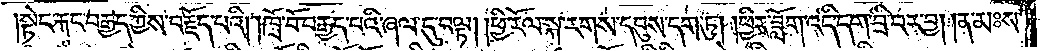སྟེང་རྐང་བརྒྱད་ཀྱིས་བརྗོད་པའི། །ཁྲོ་བོ་བརྒྱད་པའི་ཞལ་དུ་བལྟ། །ཕྱི་རོལ་སྐ་རགས་དབུས་དག་ཏུ། །ཕྱིར་ཟློག་འདི་དག་བྲི་བར་བྱ། །ན་མཿས་
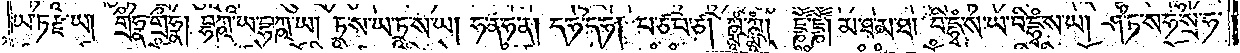ཡ་ཏ་རྫ་ཡ། གྲྀཧྣ་གྲྀཧྣ། བྷཀྵ་ཡ་བྷཀྵ་ཡ། ཏཱ་ས་ཡ་ཏྲཱ་ས་ཡ། ཧ་ན་ཧ་ན། ད་ཧ་ད་ཧ། པ་ཙ་པ་ཙ། ཀྵྨཱཾ་ཀྵྨཱཾ། ཛྞཽཾ་ཛྞཽཾ། མ་ཐ་མ་ཐ། བི་དྷྭཾ་ས་ཡ་བི་དྷྭཾ་ས་ཡ། ཤ་ཏ་ས་ཧ་སྲ་ཧ་
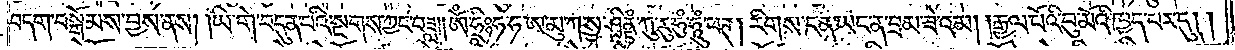བདག་བསྒོམས་བྱས་ནས། །ཡི་གེ་བདུན་པའི་སྔགས་ཀྱང་བཟླ། །ཨོཾ་ཧྲཱིཿ ཧ་ཧ་ཨ་མུ་ཀ་སྱ་ཤཱནྟིཾ་ཀུ་རུ་ཧུཾ་ཧཱུཾ་ཕཊ། རིགས་ང་ཡང་ན་བྲམ་ཟེ་འམ། །རྒྱལ་པོའི་བུ་མོའི་ཁྱད་པར་དུ། །
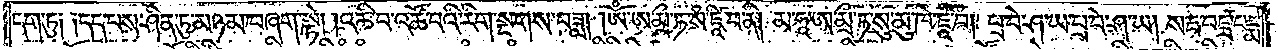དག་ཏུ༑ ༑དད་པས་ཤིན་ཏུ་མཉམ་བཞག་སྟེ། །འཆི་བ་འཚོ་བའི་རིག་སྔགས་བཟླ། །ཨོཾ་ཨ་མྲྀ་ཏ་སཾ་ཛཱི་བ་ནི། མ་ཧཱ་ཨ་མྲྀ་ཏ་སུ་མུ་ཁེ་ཛཱི་བཾ། པྲ་བེ་ཤ་ཡ་ཕྲ་བེ་ཤ་ཡ། སརྦ་བཛྲ་པདྨ་
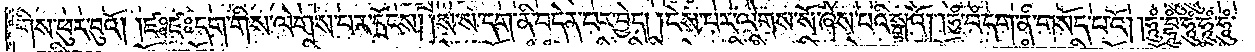གིས་ཕུར་བུའོ། །ཛཿཛཿ དག་གིས་ལེགས་པར་དྲོངས། །ས་ས་དག་ནི་བདེན་པར་བྱེད། །ངེས་པར་ལེགས་སོ་ཞེས་པའི་སྒྲའོ། །ཧུཾ་བཾ་དག་ནི་གསོད་པ་འོ། །ཧཱུཾ་བྷཱུཾ་ཧཱུཾ་ཧཱུཾ་ཧཱུཾ་
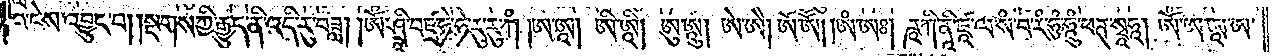རྤ་ངེས་འབྱུང་བ། །སྔགས་ཀྱི་རྒྱུད་ནི་འདི་རུ་བཟླ། །ཨོཾ་ཤྲཱི་བཛྲ་ཧེ་ཧེ་རུ་རུ་ཀཾ །ཨ་ཨཱ། ཨི་ཨཱི། ཨུ་ཨཱུ། ཨེ་ཨཻ། ཨོ་ཨཽ། །ཨཾ་ཨཿ། ཌཱ་ཀི་ནཱི་ཛཱ་ལ་སཾ་བ་རཾ་ཧུཾ་ཧཱུཾ་ཕཊ་སྭཱཧཱ། ཨོཾ་ཨ་ཨཱ་ཨ་
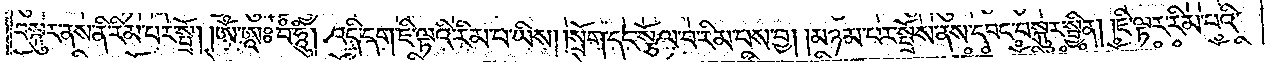བསྐུར་ནས་ནི་རིམ་པར་སྤྲོ། །ཨོཾ་ཨཱཿབཾ་ཧཱུཾ། འདི་དག་ཇི་ལྟའི་རིམ་པ་ཡིས། །སྲོག་དང་སྩོལ་བ་རིམ་པས་བྱ། །མཉམ་པར་སྤྲོས་ནས་དབང་བསྐུར་སྦྱིན། །ཇི་ལྟར་རིམ་པའི་
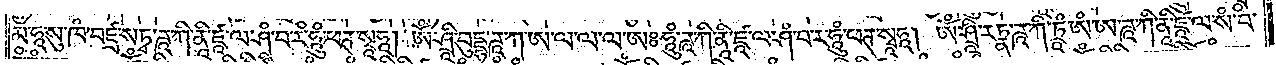མ་ཧཱ་སུ་ཁཾ་བཛྲ་སཏྭ་ཌཱ་ཀི་ནཱི་ཛཱ་ལ་ཤཾ་བ་རཾ་ཧཱུཾ་ཕཊ་སྭཱཧཱ། ཨོཾ་ཤྲཱི་བུདྡྷ་ཌཱ་ཀ་ཨ་ལ་ལ་ལ་ཨཿཧཱུཾ་ཌཱ་ཀི་ནཱི་ཛཱ་ལ་ཤཾ་བར་ཧཱུཾ་ཕཊ་སྭཱཧཱ། ཨོཾ་ཤྲཱི་རཏྣ་ཌཱ་ཀི་ཏྲཱཾ་ཨཾ་ཨ་ཌཱ་ཀི་ནཱི་ཛཱ་ལ་སཾ་བཾ་
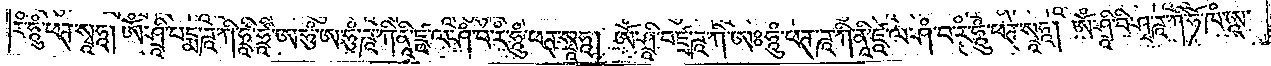རཾ་ཧཱུཾ་ཕཊ་སྭཱཧཱ། ཨོཾ་ཤྲཱི་པདྨ་ཌཱ་ཀི་ཧྲཱིཾ་ཧྲཱིཾ་ཨ་ཧུཾ་ཨ་ཧུཾ་ཌཱ་ཀི་ནཱི་ཛཱ་ལ་ཤཾ་བ་རཾ་ཧཱུཾ་ཕཊ་སྭཱཧཱ། ཨོཾ་ཤྲཱི་བཛྲ་ཌཱ་ཀི་ཨཿཧཱུཾ་ཕཊ་ཌཱ་ཀི་ནཱི་ཛཱ་ལ་ཤཾ་བ་རཾ་ཧཱུཾ་ཕཊ་སྭཱཧཱ། ཨོཾ་ཤྲཱི་བི་ཤྭ་ཌཱ་ཀི་ཧོ་ཁཾ་ཨཱ་
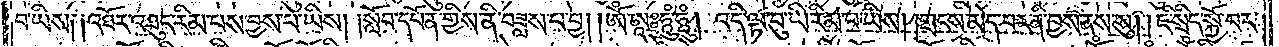བ་ཡིས༑ ༑འཐོར་འཐུང་རིམ་པས་བྱས་པ་ཡིས། །སློབ་དཔོན་གྱིས་ནི་བཟླས་པ་བྱ། །ཨོཾ་ཨཱཿཧཱུཾ་ཧཱུཾ། འདི་ལྟ་བུ་ཡི་རིམ་པ་ཡིས། །གྲངས་མེད་པར་ནི་བྱས་ནས་སུ། །ཇི་སྲིད་སྐྱོ་བར་
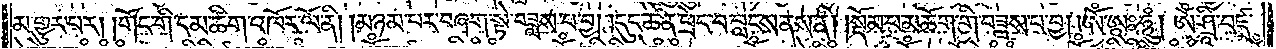མ་གྱུར་པར། །གོང་གི་དམ་ཚིག་འཁོར་ལོ་ནི། །མཉམ་པར་བཞག་སྟེ་བཟླས་པ་བྱ། །དུང་ཆེན་ཕྲེང་བ་བླངས་ནས་ནི། །སྡོམ་པ་མཆོག་གི་བཟླས་པ་བྱ། །ཨོཾ་ཨཱཿཧཱུཾ། ཨོཾ་ཤྲཱི་བཛྲ་
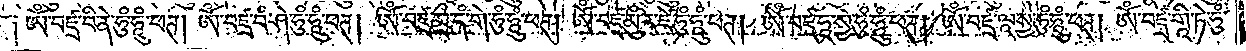ཕཊ༑ ཨོཾ་བཛྲ་བི་ནེ་ཧུཾ་ཧཱུཾ་ཕཊ། ཨོཾ་བཛྲ་བཾ་ཤེ་ཧུཾ་ཧཱུཾ་ཕཊ། ཨོཾ་བཛྲ་མྲྀ་དཾ་གེ་ཧུཾ་ཧཱུཾ་ཕཊ། ཨོཾ་བཛྲ་མུཾ་ར་ཛེ་ཧུཾ་ཧཱུཾ་ཕཊ། ཨོཾ་བཛྲ་ཧཱ་སྱེ་ཧུཾ་ཧཱུཾ་ཕཊ། ཨོཾ་བཛྲ་ལཱ་སྱེ་ཧུཾ་ཧཱུཾ་ཕཊ། ཨོཾ་བཛྲ་གཱི་ཏེ་ཧུཾ་
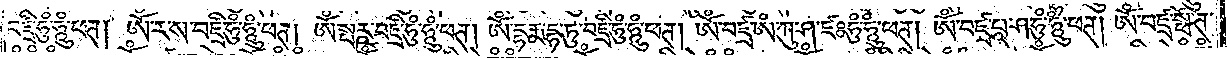བཛྲི་ཧུཾ་ཧཱུཾ་ཕཊ། ཨོཾ་ར་ས་བཛྲི་ཧུཾ་ཧཱུཾ་ཕཊ། ཨོཾ་སྤཪྵ་བཛྲི་ཧུཾ་ཧཱུཾ་ཕཊ། ཨོཾ་དྷརྨ་དྷ་ཏུ་བཛྲི་ཧུཾ་ཧཱུཾ་ཕཊ། ཨོཾ་བཛྲ་ཨཾ་ཀུ་ཤ་ཛཿ ཧུཾ་ཧཱུཾ་ཕཊ། ཨོཾ་བཛྲ་པཱ་ཤ་ཧུཾ་ཧཱུཾ་ཕཊ། ཨོཾ་བཛྲ་སྥོ་ཊ་
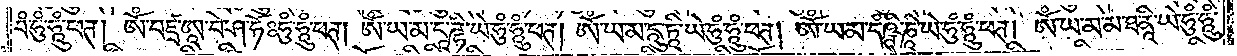བཾ་ཧུཾ་ཧཱུཾ་ཕཊ། ཨོཾ་བཛྲ་ཨཱ་བེ་ཤ་ཧོཿ ཧུཾ་ཧཱུཾ་ཕཊ། ཨོཾ་ཡ་མ་དཱ་ཌྷི་ཡེ་ཧུཾ་ཧཱུཾ་ཕཊ། ཨོཾ་ཡ་མ་དཱུ་ཏཱི་ཡེ་ཧུཾ་ཧཱུཾ་ཕཊ། ཨོཾ་ཡ་མ་དཾཥྚི་ཎཱཾ་ཡེ་ཧུཾ་ཧཱུཾ་ཕཊ། ཨོཾ་ཡ་མ་མ་ཐ་ནཱི་ཡེ་ཧུཾ་ཧཱུཾ་
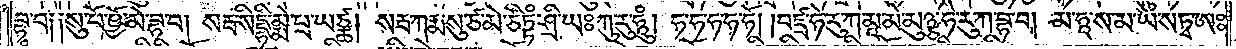བྷ་བ༑ ༑སུ་པོ་ཥྱོ་མེ་བྷ་བ། སརྦ་སིདྡྷི་མྨེ་པྲ་ཡཙྪ། སརྦ་ཀརྨ་སུ་ཙ་མེ་ཙིཏྟཾ་ཤྲི་ཡཿ ཀུ་རུ་ཧཱུཾ། ཧ་ཧ་ཧ་ཧ་ཧོ། །བཛྲ་ཧེ་རུ་ཀ་མཱ་མེ་མུཉྩ་ཧེ་རུ་ཀ་བྷ་བ། མ་ཧཱ་ས་མ་ཡ་སཏྭ་ཨཿ
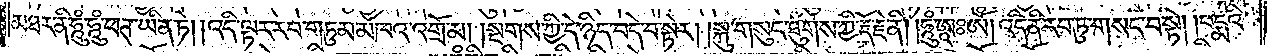མཐར་ནི་ཧཱུཾ་ཧཱུཾ་ཕཊ་ཡིན་ཏེ། །འདི་ལྟར་རབ་གཏུམ་མཁའ་འགྲོ་མ། །སྔགས་ཀྱི་དེ་ཉིད་བདེ་བ་སྟེར། །སྐུ་གསུང་ཐུགས་ཀྱི་རྡོ་རྗེ་ནི། །ཧཱུཾ་ཨཱཿཨོཾ། འདི་ནི་རབ་ཏུ་གསང་བ་སྟེ། །པདྨའི་
